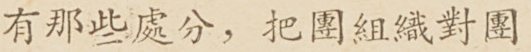有那些處分，把團組織對團
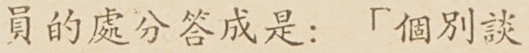員的處分答成是：「個別談
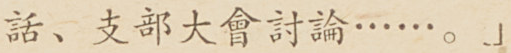話、支部大會討論……。」
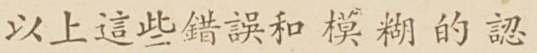以上這些錯誤和模糊的認
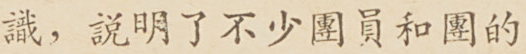識，說明了不少團員和團的
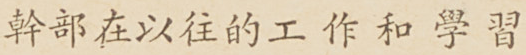幹部在以往的工作和學習
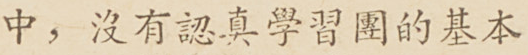中，沒有認真學習團的基本
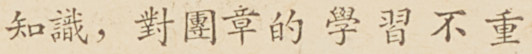知識，對團章的學習不重
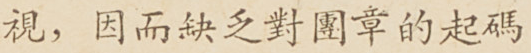視，因而缺乏對團章的起碼
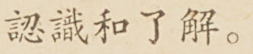認識和了解。
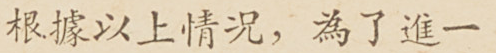根據以上情況，為了進一
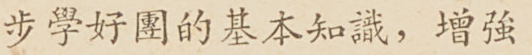步學好團的基本知識，增強
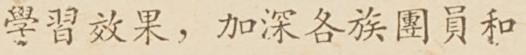學習效果，加深各族團員和
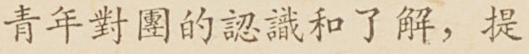青年對團的認識和了解，提
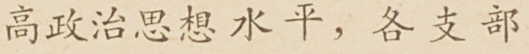高政治思想水平，各支部
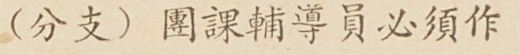（分支）團課輔導員必須作
